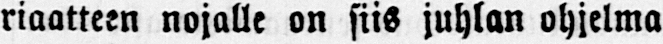riaatteen nojalle on siis juhlan ohjelma
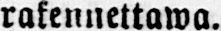rakennettawa.
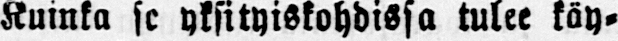Kuinka se yksityiskohdissa tulee käy-
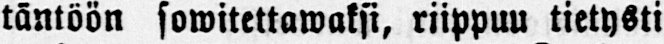täntöön sowitettawaksi, riippuu tietysti
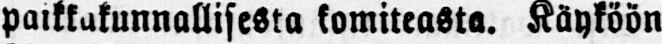paikkakunnallisesta komiteasta. Käyköön
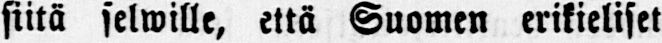siitä selwille, että Suomen erikieliset
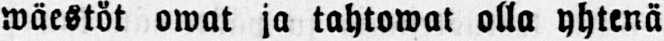wäestöt owat ja tahtowat olla yhtenä
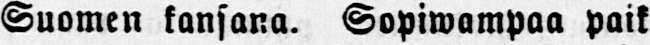Suomen kansana. Sopiwampaa paik-
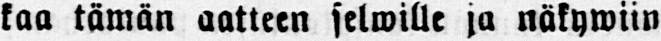kaa tämän aatteen selwille ja näkywiin
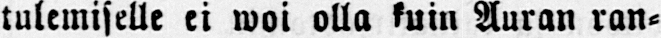tulemisille ei woi olla kuin Auran ran-
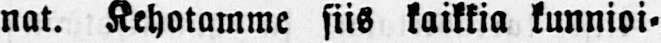nat. Kehotamme siis kaikkia kunnioi-
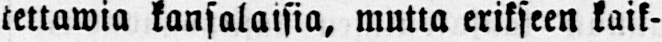tettawia kansalaisia, mutta erikseen kaik-
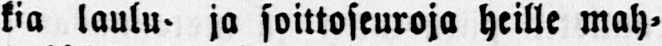kia laulu- ja soittoseuroja heille mah-
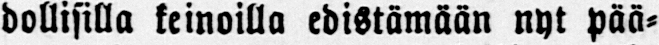dollisilla keinoilla edistämään nyt pää-
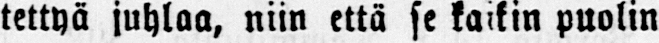tettyä juhlaa, niin että se kaikin puolin
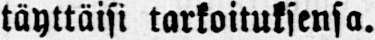täyttäisi tarkoituksensa.
